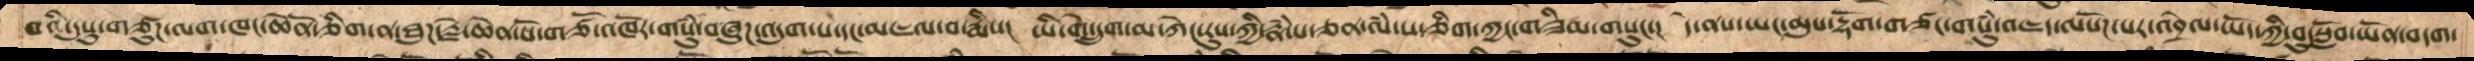བའི་དུསུ་གཙུཌ་ལག་ཁང་ཆེནོ་ཅིག་ན་ཐུཌ་རྗེ་ཆེན་པོ་གཙོ་འཁོར་གསུཾ་བཞུཌ་འདུག་པ་དང་མཇལ་བ་རྨིས།  ཡི་གེ་དྲུག་མ་ཀེང་རུས་ཀྱི་རྣཾ་པ་ཅན་ལཾ་ས་ཅིག་ཀྱང་གཟིམ་གསུང་།  དེ་ནས་ཡང་མུས་དྷོག་གཙང་གསུཾ་འཇད་ལསོཌ་པར་འབྲེལ་ཡོད་ཀྱི་བུ་སློབ་ཡོན་བདག་
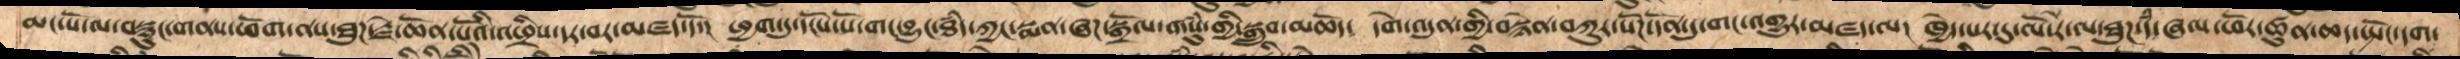མང་པོ་ལ་བསྙུང་གནས་ཕོག་ནས་ཐུཌ་རྗེ་ཆེན་པོའི་འཕྲིས་དར་བར་མཛད་དོ་།   ཕྱག་དུ་དངོས་པོ་གང་བྱུང་ཐཾད་ཀྱང་སྨན་ཞཌ་སྒྲོལ་གསུཾ་གྱི་སྒྲུབ་མཆོད།  དགེ་འདུན་གྱི་བསྙེན་བཀུར་སོཌ་དོན་དུ་གང་འགྱུར་མཛད་ལ།  ཁྱེད་པར་དུ་ལོ་རེ་ལ་ཐུཌ་དཾ་ཞལ་ཕོར་ཚུན་ཆད་སྤོང་དག་
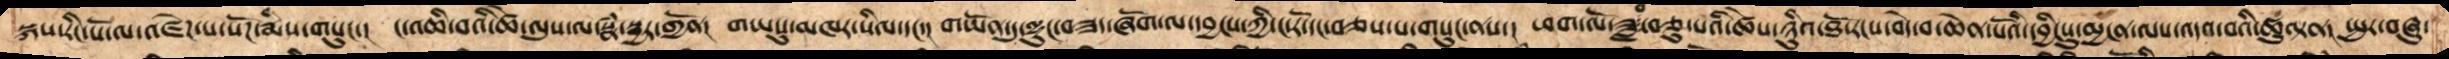སྐས་རིང་པོ་ལ་འཛེཌ་པ་སོཌ་རྨིས་གསུང་།  ང་འཆི་བའི་ཚེ་ལུས་ལ་སྣཾ་སྦྱར་གྱོན།  གཡསུ་མཁར་སིལ་དང་། གཡོན་དུ་ལྷུང་བཟད་ཞོག་ལ་དབྱངས་ཀྱི་ང་རོ་དང་བཅས་པ་གསུང་ནས་། ཕག་ལོ་ཟླ་བ་བཅུ་པའི་ཚེས་ཉིུའ་ཐོ་རངས་བདེ་བ་ཆེན་པོའི་དབྱིངསུ་མྱངན་ལས་འདའ་བའི་ཚུལྟན། སྤུར་བཞུ་
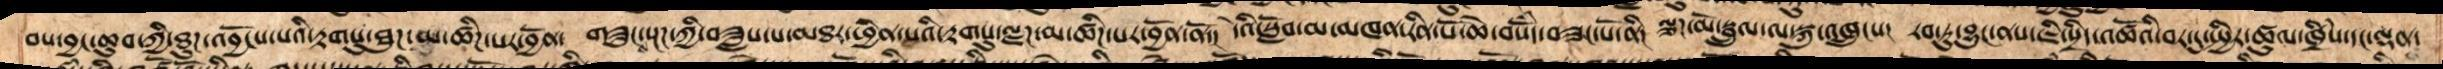བས་བྱང་ཆུབ་ཀྱི་ཐུཌ་འབྱོངས་པའི་རྟགསུ་ཐུཌ་མ་ཚིཌ་པར་བྱོན། གཟུངས་སྔཌ་ཀྱི་བཟླས་པ་མཐར་ཕྱིན་པའི་རྟགསུ་ལྗཌ་མ་ཚིཌ་པར་བྱོན་ནོ་། དེའི་སློབ་མ་མཁན་རིན་པོ་ཅེ་བསོདཾ་བཟང་པོ་ནི། ལྕཌ་མོ་སྦྲུལ་ལ་སྐུ་འཁྲུངས།  རབ་ཏུ་བྱུང་ནས་ཇི་སྲིད་འཚོའི་བར་དུ་སྤྱིར་ཚུལ་ཁྲིཾས་དང་ལྡན་
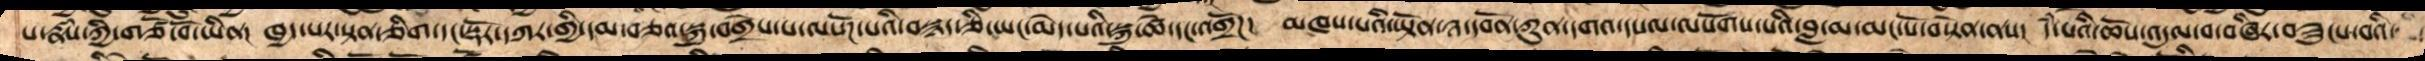པ་རྣཾས་ཀྱི་གཙོ་བོ་ཡིན།  ཁྱད་པར་སྟན་ཅིག་དང་སྡོར་དཀར་གྱི་དམ་བཅའ་སྐུ་བགྲེས་པ་ལསོཌ་པའི་བསྙད་ཅི་ཡང་མེད་པའི་སྐུ་ཚེ་དང་འགྲོཌ།  མཁས་པའི་ཡྟོན་ཉ་དབོན་ཀུན་དགའ་དཔལ་ལསོགས་པའི་བླ་མ་མང་པོ་བསྟེན་ནས།  དཾ་པའི་ཆོས་འདུལ་བ་བཞིར་བཟུངས་བའི་
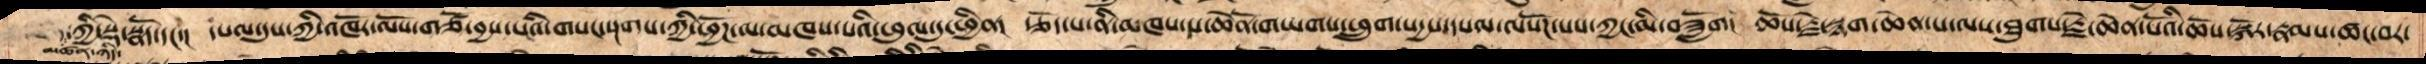མཚན་ཉིད་ཀྱི་སྡེ་སྣོད་དང་།  དཔལ་དུས་ཀྱི་འཁོར་ལོས་གཙོ་བྱས་པའི་གསང་སྔགས་ཀྱི་ཕྱོཌ་ལ་མཁས་པའི་ཕུལ་དུ་ཕྱིན།  རྩོད་པ་ནི་མཁས་པ་ཆེནོ་གཡགས་ཕྲུག་སདྱས་དཔལ་ལསོཌ་པས་ཀྱང་མི་བཟློག། ཆོས་རྗེ་སྙག་ཆེན་པ་ལས་ཐུགས་རྗེ་ཆེན་པོའི་ཆོས་སྐོར་རྣམས་ཚང་བར་
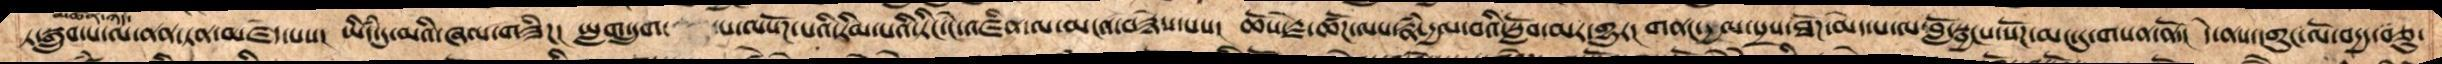ཏ་སྒྲུབ་པ་ལ་ནན་ཏན་མཛད་པས།  ཡིདཾ་དུ་མའི་ཞལ་གཟིཌ། ཡླག་དྲུག་ པ་ལསོཌ་པའི་རིམ་པའི་ཏིང་ངེ་འཛིན་ལ་མངའ་བརྙེས་པས། ཆོས་རྗེ་ཚོཌ་ལས་རྣཾ་དྱལ་བའི་སློབ་མར་གྱུར།  གནང་དྱལ་སྲས་ཐོཌ་མེད་པ་ལ་བློ་སྦྱངས་སོཌ་མང་དུ་གསན་ནོ་། དེ་ནས་དགུང་ལོ་བདྱད་བཅུ་
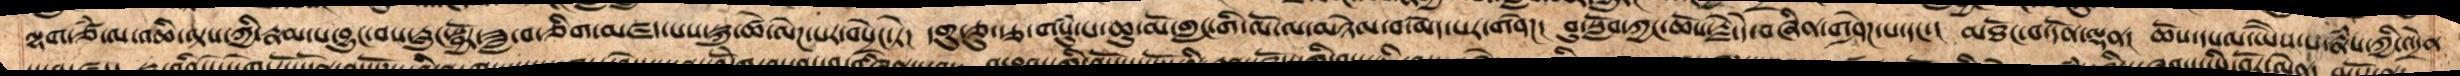ལྷག་ཙཾ་ལ་འཆི་ལྟས་ཀྱི་རྣམ་པ་བྱུང་བས་རླུང་སྦྱོར་ཟླ་བ་ཅིག་མཛད་པས་སྐུ་ཚེ་ལེཌ་པར་བསྲེང་ཏེ། དགུ་ཅུ་རྩ་གསུཾ་པ་ཆུ་མོ་གླང་གི་ལོ་ལ་མཉེམ་བ་མེད་པར་གཤེཌ།  བུ་སློབ་ཀྱང་ཆོས་རྗེ་དེ་བཞིན་གཤེཌ་པ་དང་། མཐོང་བ་དོན་ལྡན། ཆོོས་དཔལ་ཡཻས་པ་རྣཾས་ཀྱི་འདྲེན་
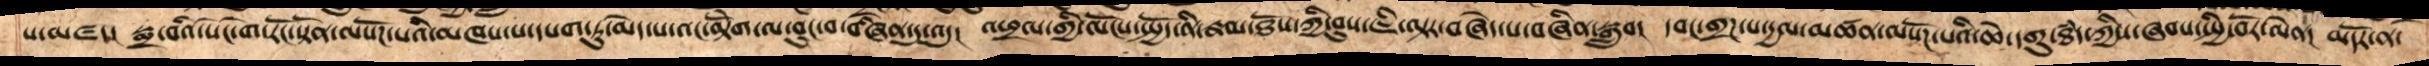པ་མཛད།  སྨྲ་བའི་སེང་གེ་རོང་སྟོན་ལསོཌ་པའི་མཁས་པ་དཔག་ཏུ་མེད་པ་འང་མྟེགོ་ལ་བུང་བ་བཞིན་དུ་འདུ།  འཕྲལ་གྱི་ལོངས་སྤྱོད་ནི་རྣམ་ཐོས་ཀྱི་བུས་ཇི་ལྟར་བཞེད་པ་བཞིན་སྒྲུབ།  དབང་གྲཌ་པ་དྱལ་མཚན་ལསོཌ་པའི་ཆེ་དགུ་ཐཾད་ཀྱིས་ཞབས་སྤྱི་བོར་ལེན།  མདོར་ན་
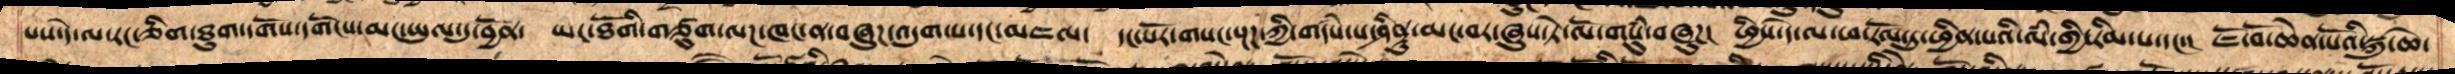པས་དེ་ལ་རང་ཅིག་ཐུག་དགོས་དགོངས་མང་ཡུལ་དུ་བྱོན་  ཡང་ཐོགི་གཙུག་ལཌ་ཁང་ན་བཞུཌ་འདུག་པ་དང་མཇལ།  དང་པོར་གསང་སྔཌ་ཀྱི་གདཾས་པ་ཤིནྟུ་མང་བར་ཞུས་ཏེ་ལོ་གསུཾ་བཞུཌ།  ཕྱིས་དེ་ལ་ཕ་རོལ་དུ་ཕྱིན་པའི་ལཾ་གྱི་རིམ་པ་དང་།  ཇོ་བོ་ཆེན་པོའི་སྐུ་ཆེ་
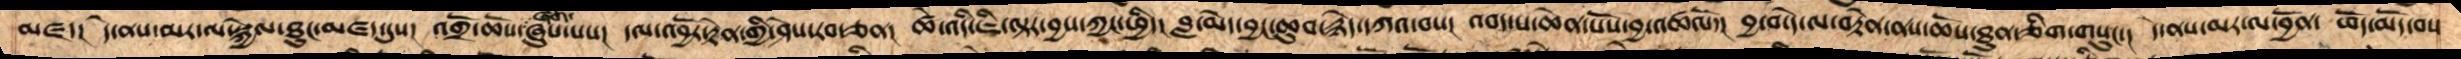མཛད།  དེ་ནས་མར་ལ་སྐྱེལ་ཐུང་མཛད་དུས། འགྲོ་ཆོས་ཞུས་པས།  དལ་འབྱོར་རྟེན་གྱི་ཤེས་རབ་ཅན། ཚེ་འདི་ཇི་ལྟར་བྱས་ཀྱང་ཕྱིད། བླ་མེད་བྱང་ཆུབ་རྙེད་དཀའ་བས། འབད་པ་ཆེན་པོས་བྱ་འཚལོ་། བྱ་བ་དེ་ལ་བརྟེན་ལས་ཆོས་ཐུན་ཅིག་གསུང་།  དེ་ནས་མར་ལ་བྱོན། ཕོད་མོད་བས
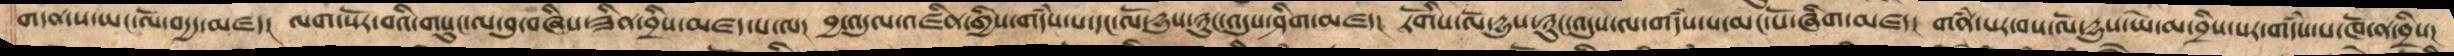གདན་ས་ཡང་ལོ་བདྱད་མཛད།  ལག་སོར་བའི་གསུང་ལ་བུ་བཞིས་ཟིན་བྲིས་མཛད་པ་ལ།  བྱ་འདུལ་འཛིན་གྱིས་གདཾས་པ་དང་ལོ་དྱུས་ཉུང་འདུས་ཤིག་མཛད།  རོགིས་ལོ་དྱུས་ཉུང་འདུས་ལ་གདཾས་པ་མང་པོ་ཞིག་མཛད།   གནཾ་པར་བས་ལོ་དྱུས་ཡེ་མ་བྲིས་པར་གདཾས་པ་ཁོ་ན་བྲིས།
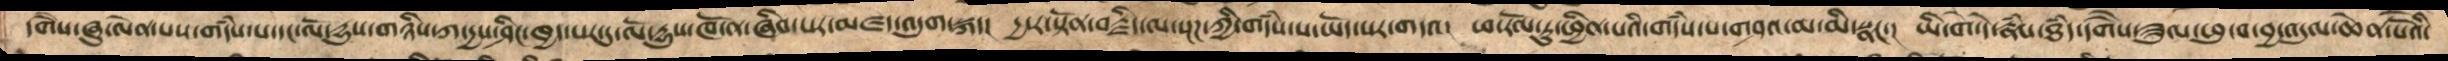དགཻས་ཞུ་ལེན་པས་གདཾས་པ་དང་ལོ་དྱུས་གཉིས་ཀ་དྱས་ཤིང་ཁྱད་པར་དུ་ལོ་དྱུས་ཁོ་ན་ཞིབ་པར་མཛད་འདུག་སྐད།   དྱ་ར་སྟོན་བརྗིད་ལ་སྔཌ་ཀྱི་གདཾས་པ་ཡོད་པར་གདའ།  ཕ་རོལ་ཏུ་ཕྱིན་པའི་གདཾས་པ་གཤའ་མ་མི་སྣང་།   ཡི་གེ་དེ་རྣཾས་ཐཾད་དགཻས་ཟུལ་ཕུ་བ་བྱ་འདུལ་ཆེན་པོའི་
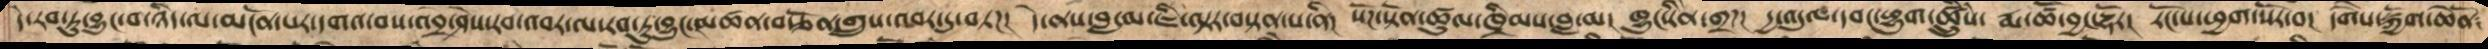དེ་རབ་ཏུ་བྱུང་བ་ཉིད་ལ་མངོན་པར་དགའ་བས་འབྲེ་ཤེས་རབ་འབར་ལ་རབ་ཏུ་བྱུང་མཚན་བརྩོན་གྲུས་འབར་དུ་བཏཌ།  དེ་ནས་བླ་མ་ཇི་ལྟར་བསྟན་པ་ནི།  སོཌ་སྟོན་ཚུལ་ཁྲིམས་བླ་མ།  ཁྱུང་རིནེ་གྲཌ།  དྱ་འདུལ་དབང་ཕྱུག་ཚྲིུཾས།  རྨ་ཚོ་བྱང་རྡོར།  རོང་པ་ཕྱག་སོར་བ། དགཻས་སྐྱོག་ཆེནོ།
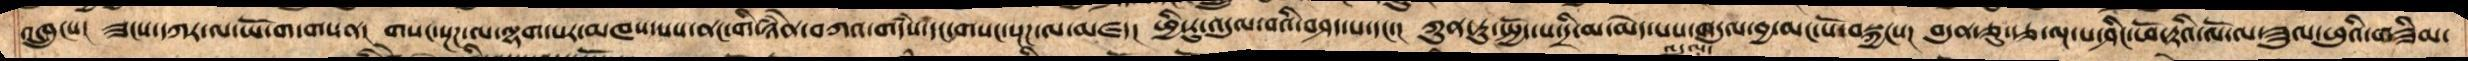འཁྲུངས། ཟངས་དཀར་ལ་ཡོ་ག་གསན། གསང་སྔཌ་ལ་ལྷག་པར་མཁས་པས་ནང་གི་ཉཾནེ་བཀའ་གདཾས་དང་གསང་སྔཌ་ལ་མཛད། ཕྱི་རུ་འདུལ་བའི་བཤད་པ་དང་། ཀུན་ཏུ་སྤྱོད་པ་དྲི་མ་མེད་པས་གདུལ་བྱ་མང་པོ་བསྐྱངས།  བདུན་ཅུ་རྩ་ལྔ་པ་ཤིང་ཕོ་རྟའི་ལོ་ལ་ཟུལ་ཕུའི་གཟིམ་
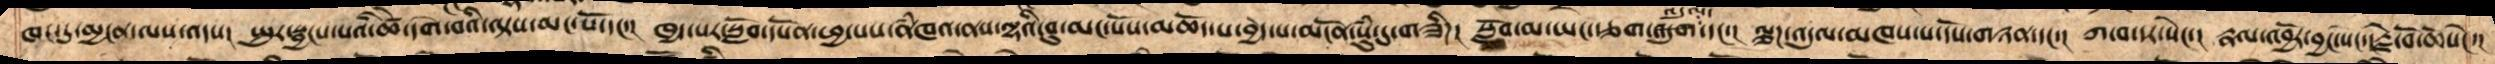ཁང་དུ་མྱ་ངན་ལས་འདས། སྤུར་སྦྱངས་པའི་ཚེ་དགེ་བའི་ལྟས་མང་པོ་དང་། ཁྱད་པར་སློབ་དཔོན་ཕྱ་པས་ནཾཁའ་ནས་ལྷའི་བུ་མང་པོས་མཆོད་པ་བྱེད་པ་མངོན་སུཾ་དུ་གཟིཌ། སློབ་མ་ཡང་རྩག་འདུལ་དང་། ལྕཌ་འདུལ་མཁས་པ་དེས་གཉན་དང་། ཀ་བ་དར་སེང་། རྣལ་འབྱོར་བྱང་སེང་རྗེ་བོ་ཆོསེང་།
